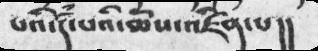པའི་དཾ་པའི་ཆོས་འཛིན་པ།།
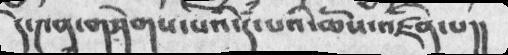དེ་༤ན་གཤེགས་པའི་ཾ་ྃཔའི་ཆོས་འཛིན་པ།།
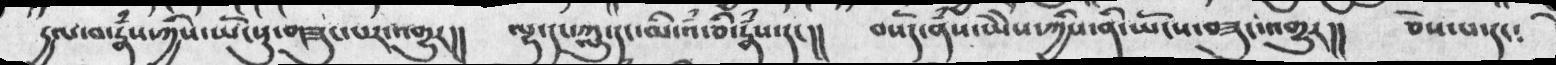རྱལ་བ་རྣཾས་ཀྱིས་ཡོངསུ་གཟུང་པར་འགྱུར།།   ལྷ་དང་ཀླུ་དང་མི་འཾ་ཅི་རྣཾས་དང་།།    བསོད་ནཾས་ཡེེས་ཀྱིས་ནི་ཡོངས་བཟུང་འགྱུར།།     ཅེས་པ་དང༴
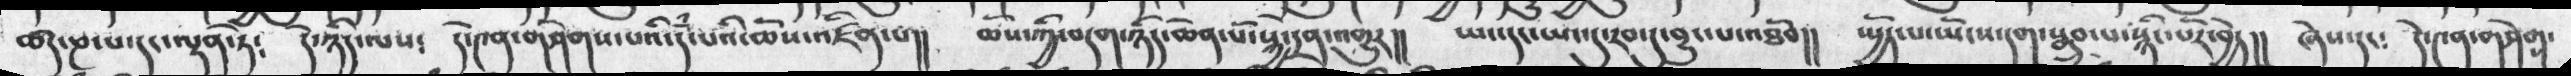ཚད་ཎ་པ་དང་ལྡན་ཏེ༴    དེ་ཉིད་ལས༴   དེ་༤ན་གཤེགས་པའི་དཾ་པའི་ཆོས་འཛིན་པ།།   ཆོས་ཀྱི་བདག་ཉིད་ཆེན་པོ་སྐྱེ་དྲན་འགྱུར།།    ཡང་དང་ཡང་དུ་རབ་དུ་བྱུང་པ་འཐོབ།།   ཡྱོད་པ་ཡོངས་དག་སྒྲུབ་པ་སྙིང་པོར་བྱེད།།   ཞེས་དང༴    དེ་༤ན་གཤེག་
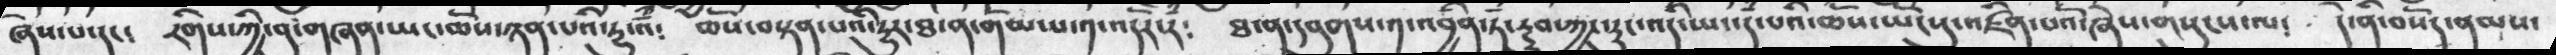ཞེས་པ་དང༴      རིགས་ཀྱི་བུ་གཞན་ཡང་ཆོས་ཉན་པའི་རྱུ་འཾ༴        ཆོས་བསྟན་པའི་རྱུར་ཐ་ན་གོམ་པ་༡་འདོར་ར༴    ཐ་ན་དབུགས་༡་འབྱིན་ཏོ་རྔུབ་ཀྱང་རུང་འདི་ཡང་དཾ་པའི་ཆོས་ཡོངསུ་འཛིན་པའོ་ཞེས་གསུངས་ལ༴  དེ་ནི་བསོད་ནམས་
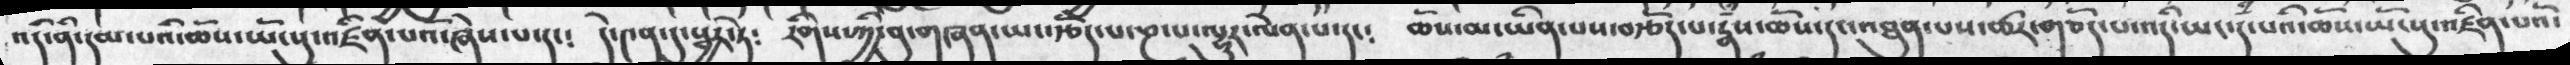འདི་ནི་དམ་པའི་ཆོས་ཡོངསུ་འཛིན་པའོ་ཞེས་པ་དང༴  དེ་༤ན་དུ་སྦྱར་ཏེ༴    རིགས་ཀྱི་བུ་གཞན་ཡང་རྩོད་པ་ཎ་པ་ལྷུར་ལེན་པ་དང༴   ཆོས་མ་ཡིན་པས་བརྩོད་པ་རྣཾས་ཆོས་དང་འཐུན་པས་ཚར་གཅོད་པ་འདི་ཡང་དཾ་པའི་ཆོས་ཡོངསུ་འཛིན་པའོ་
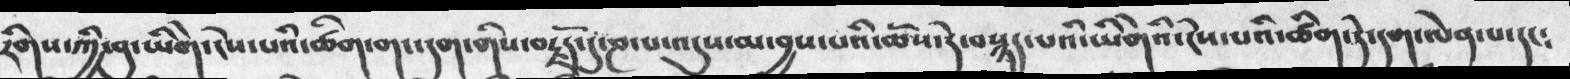རིགས་ཀྱི་བུ་ཡིགེ་ངེས་པའི་ཚིག་གང་དག་གིས་བརྗོད་དུ་ཎ་པ་འདུས་མ་བྱས་པའི་ཆོས་དེ་བསྙད་པའི་ཡིགེའི་ངེས་པའི་ཚིག་དེ་དག་ལེན་པ་དང༴
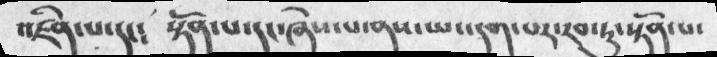འཛིན་པ་དང༴   སྟོན་པ་དང་ཞེས་པ་ནས་ཡང་དག་པར་རབ་ཏུ་སྟོན་པ་
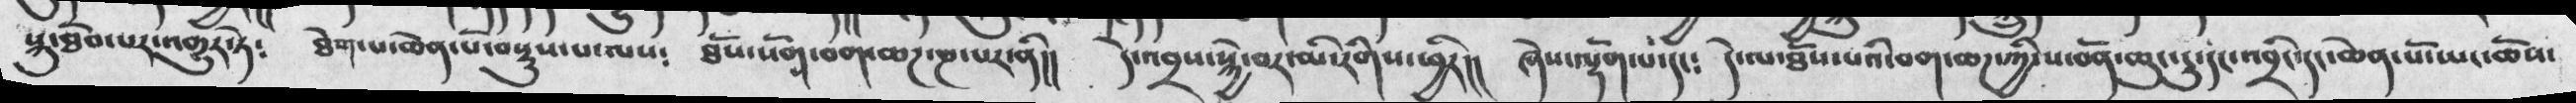སྐུ་ཐོབ་པར་འགྱུར་ཏེ༴    ཐེག་པ་ཆེན་པོ་བསྡུས་པ་ལས༴   ཐོས་སོག་བག་ཆཌ་ཎ་པར་ནི།།  དེ་འབྲས་སྐྱེ་བར་མི་རིགས་ཕྱིར།།  ཞེས་ལྡོག་པ་དང༴  དེ་ལ་ཐོས་པའི་བག་ཆཌ་ཀྱི་ས་བོན་ཆུང་ངུ་དང་འབྲིང་དང་ཆེན་པོ་ཡང་ཆོས་
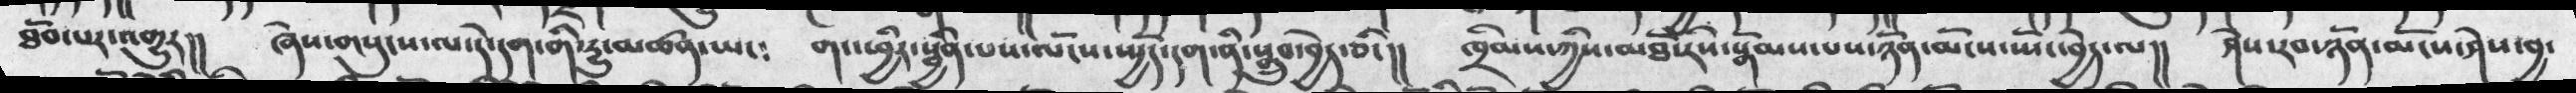ཐོས་པར་འགྱུར།།   ཞེས་གསུངས་ལ་དེ་དག་གི་རྱུ་མཚན་ཡང༴   གང་ཕྱིར་སྦྱིན་པས་ལོངས་ཡྱོད་དག་ནི་སྒྲུབ་བྱེད་ཅིང།།  ཁྲིམས་ཀྱིས་མཐོ་རིས་སྡོམས་པས་ཉོན་མོངས་སྤོང་བྱེད་ལ།།   ཤེས་རབ་ཉོན་མོངས་ཤེས་བྱ་
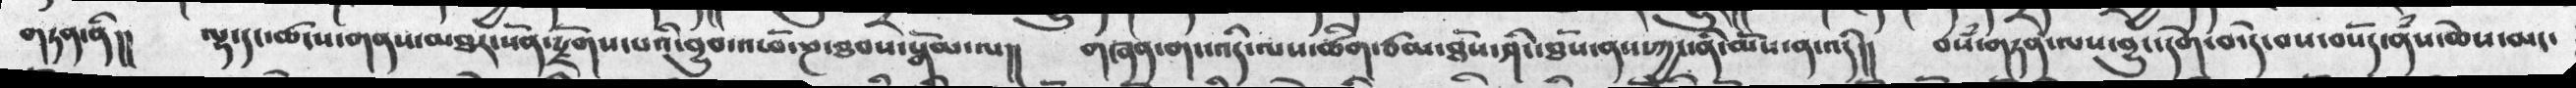གཏན་ནི།། ལྷ་དང་ཚངས་གནས་མཐར་སོན་སྫོགས་པའི་བྱུབ་འཕོ་ཎ་ཐབས་སྒོམ་ལ།། གཞན་གང་འདིར་འདི་ལས་ཚིག་ཙམ་ཐོས་ཤིང་ཐོས་ནས་ཀྱང་ནི་མོས་ན་འདི།། བསམ་གཏན་ལས་བྱུང་དགེ་བ་དེ་བས་བསོད་ནཾས་ཆེས་མང་
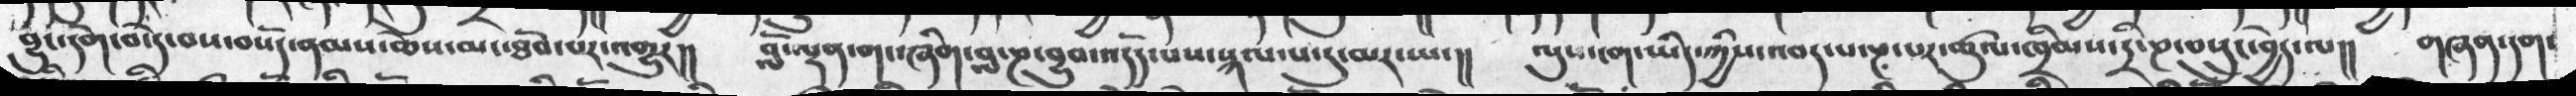བྱུང་དགེ་བ་དེ་བས་བསོད་ནམས་ཆེས་མང་ཐོབ་པར་འགུར།།  བློ་ལྡན་གང་ཞིག་བླ་ཎ་བྱུབ་འདོད་པས་སྐལ་པ་དུ་མར་ཡང།།  ལུས་ངག་ཡིད་ཀྱིས་འབད་པ་ཎ་པར་ཚུལ་ཁྲིམས་དྲི་ཎ་བསྲུང་བྱེད་ལ།།  གཞན་དག་
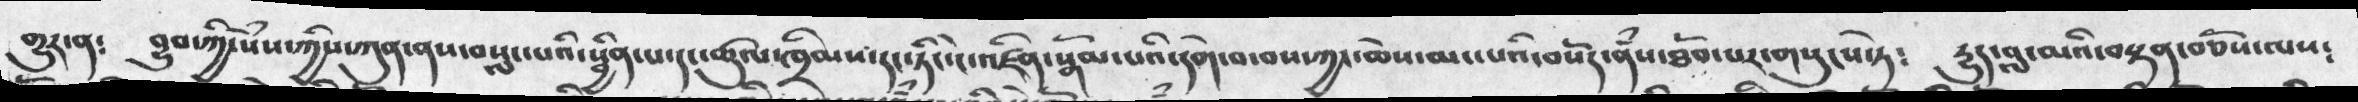གྱུར་ན༴  བྱུབ་ཀྱི་སེཾས་ཀྱིས་ཀུན་ནས་བསླང་པའི་སྦྱིན་པ་ཚུལ་ཁྲིམས་དང་ཏིང་ངེ་འཛིན་སྒོམ་པའི་དགེ་བ་བས་ཀྱང་ཆེས་མང་པའི་བསོད་ནཾས་ཐོབ་པར་གསུངས་ཏེ༴  རྱུད་བླ་མའི་བསྟན་བཅོས་ལས༴
